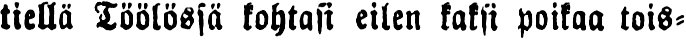tiellä Töölössä kohtasi eilen kaksi poikaa tois-
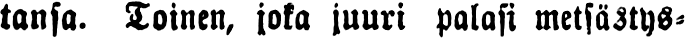tansa. Toinen, joka juuri palasi metsästys-
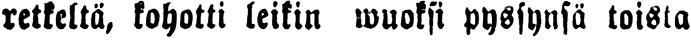retkeltä, kohotti leikin wuoksi pyssynsä toista
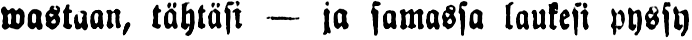wastaan, tähtäsi — ja samassa laukesi pyssy
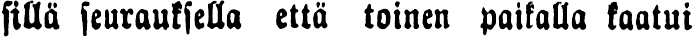sillä seurauksella että toinen paikalla kaatui
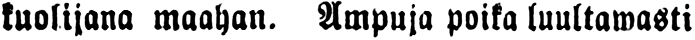kuolijana maahan. Ampuja poika luultawasti
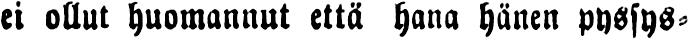ei ollut huomannut että hana hänen pyssys-
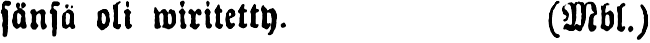sänsä oli wiritetty. (Mbl.)
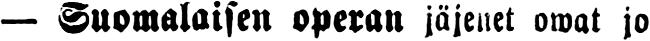— Suomalaisen operan jäjenet owat jo
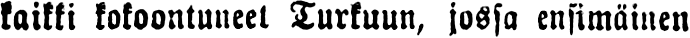kaikki kokoontuneet Turkuun, jossa ensimäinen
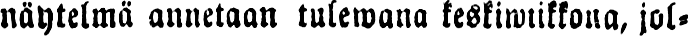näytelmä annetaan tulewana keskiwiikkona, jol-
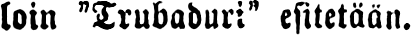loin "Trubaduri" esitetään.
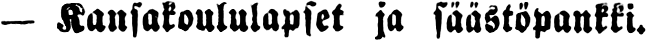— Kansakoululapset ja säästöpankki.
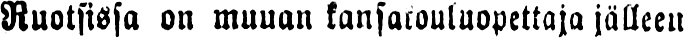Ruotsissa on muuan kansakouluopettaja jälleen
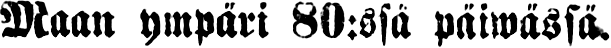Maan ympäri 80:ssä päiwässä.
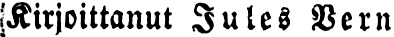Kirjoittanut Jules Verne.
